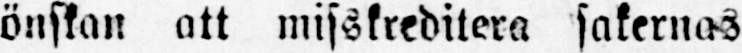önskan att misskreditera sakernas
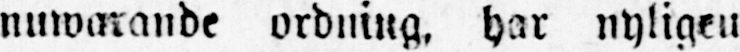nuwarande ordning, har nyligen
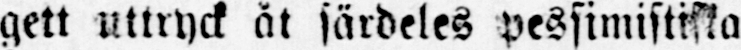gett uttryck åt särdeles pessimistiska
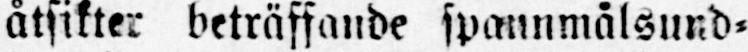åtsikter beträffande spannmålsund-
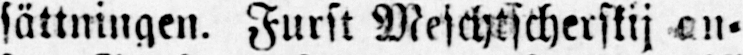sättningen. Furst Meschtscherskij an-
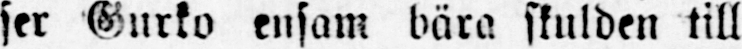ser Gurko ensam bära skulden till
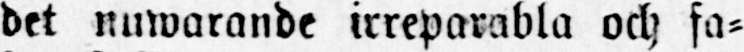det nuwarande irreparabla och fa-
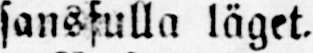sansfulla läget.
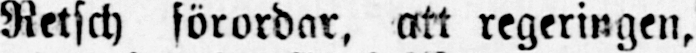Retsch förordar, att regeringen,
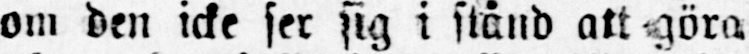om den icke ser sig i stånd att göra
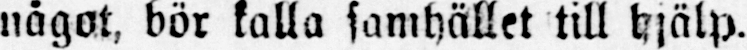något, bör kalla samhället till hjälp.
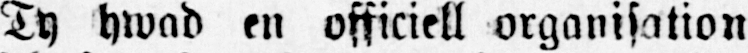Ty hwad en officiell organisation
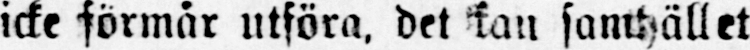icke förmår utföra, det kan samhället
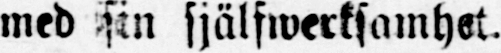med sin själfwerksamhet.
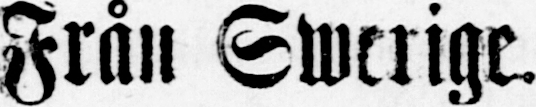Från Swerige.
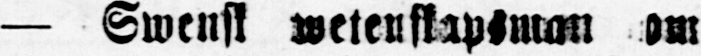— Swensk wetenskapsman om
